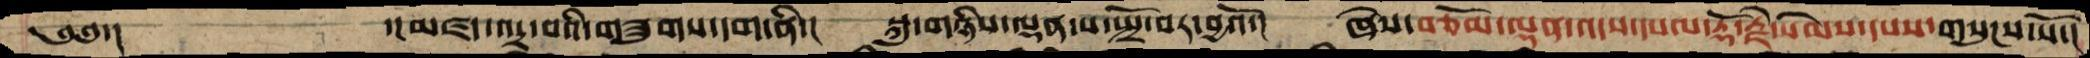༄༅་།      ་།མཛད་འདྲ་བའི་གཟུགས་དག་ནི་།  སྐུ་གཉིས་ལྡན་པ་སྤྲོ་བར་བྱའོ་།  ཞེས་བཅོམ་ལྡན་འདས་དཔལ་རྡོ་རྗེ་སེམས་དཔས་གསུངས་སོ་།
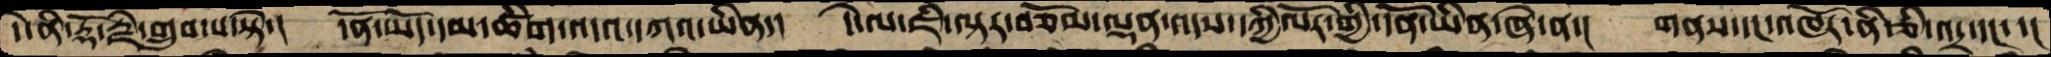དེ་ནི་རྡོ་རྗེ་གྲུབ་པ་སྟེ་།  དོན་ཡོད་དམ་ཚིག་འདའ་དཀའ་ཡིན་།  དེ་ལ་ཇི་ལྟར་བཅོམ་ལྡན་འདས་དཀྱིལོར་གྱི་དོན་ཡིན་ཞེ་ན་།  གནས་དང་འཁོར་ནི་ཅི་འདྲ་དང་་།
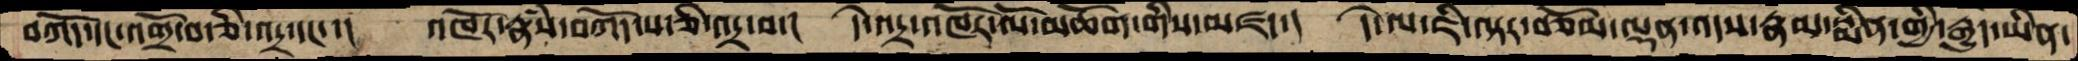བཀོད་དང་འགྲོ་བ་ཅི་འདྲ་དང་་།  འཁོར་རྣཾས་བཀོད་པ་ཅི་འདྲ་བ་།  དེ་འདྲ་འཁོར་ལོ་མཆོག་གིས་མཛད་།  དེ་ལ་ཇི་ལྟར་བཅོམ་ལྡན་འདས་རྣམ་སྨིན་གྱི་རྒྱུད་ཡིན་
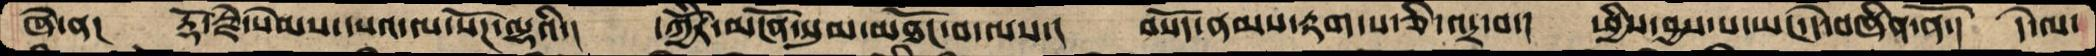ཞེ་ན།  རྡོ་རྗེ་སེམས་དཔའ་ལ་སོཌ་ལྷའི་།  དཀྱིོར་མངོན་སུམ་མཐོང་བ་ལས་།  བསོད་ནམས་རྟག་པ་ཅི་འདྲ་བ་།  ཕྱིས་བྱས་པ་ཡང་དེ་བཞིན་ནོ་།  དེ་ལ་
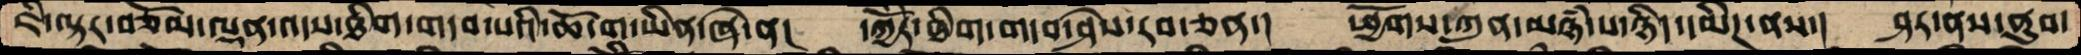ཇི་ལྟར་བཅོམ་ལྡན་འདས་ཐིག་གདབ་པའི་ཆོ་ག་ཡིན་ཞེ་ན།  དཀྱིོར་ཐིག་གདབ་ཤེས་རབ་ཅན་།  ཕྱོགས་ཀུན་མཉཾ་པ་ཉིད་དམིཌ་ནས་།  ཤར་ནས་ནུབ་
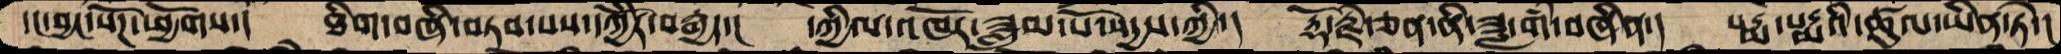དང་བྱང་སོཌ་ཕྱོགས་།  ཐིག་བཞི་བཏབ་པས་དཀྱིོར་བརྒྱད་།  དཀྱིལ་འཁོར་ཟླུམ་པོ་སདྱས་ཀྱི་།  རྡོ་རྗེ་ཅན་ནི་ཟླ་གཾ་བཞིན་།  པདྨ་པདྨའི་ཚུལ་ཡིན་ཏེ་།
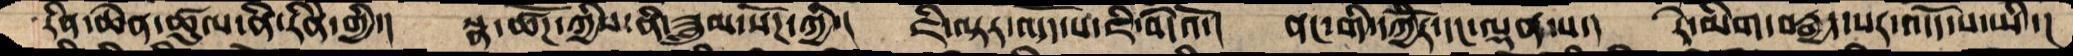རིན་ཆེན་ཚུལ་ནི་རིནེ་གྱི་།  སྣ་ཚོཌ་ཀྱིས་ནི་ཟླུམ་སོཌ་ཀྱི་།  ཇི་ལྟར་འདོད་པ་ཇི་བདེའོ་།  ནང་གི་དཀྱིོར་དང་ལྡན་པ་།  རེ་མིག་བརྒྱད་པར་འདོད་པ་ཡི་།
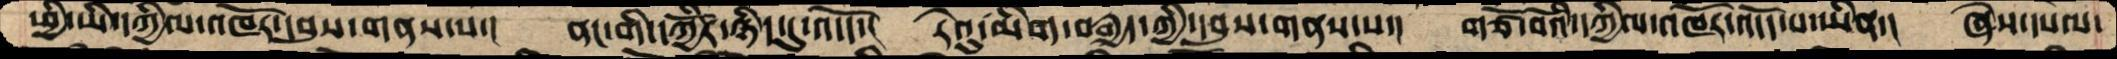ཕྱི་ཡི་དཀྱིལ་འཁོར་དབུས་གནས་པ་།  ནང་གི་དཀྱིོར་ཉིད་དུ་འདོད་།  རེའུ་མིག་བརྒྱད་གྱི་དབུས་གནས་པ་།  གཙོ་བོའི་དཀྱིལ་འཁོར་འདོད་པ་ཡིན་།  ཞེས་དཔལ་
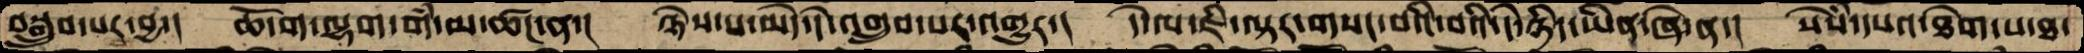བསྒྲུབ་པར་བྱ་།  ཆོ་ག་ལྷག་གཾ་མ་ཚང་ན་།  ཉེས་པ་མེད་དེ་འགྲུབ་པར་འགྱུར་།  དེ་ལ་ཇི་ལྟར་གསང་བའི་བའི་དེ་ཉིད་ཡིན་ཞེ་ན་།  སེཾས་དཔའ་ཐེག་པ་ཐ་
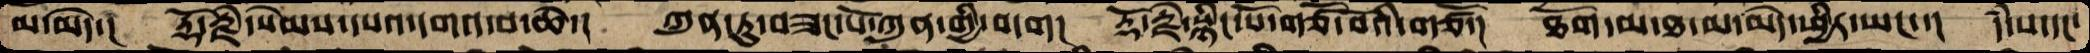མ་མེད་།  རྡོ་རྗེ་སེམས་དཔའ་དགའ་བ་ཆེ་།  ཀུན་ཏུ་བཟང་པོ་ཀུན་གྱི་བདག།  རྡོ་རྗེ་སྙིང་པོ་གཙོ་བོའི་གཙོ་།  ཐོག་མ་ཐ་མ་མེད་ཕྱིར་ཡང་་།  དཾ་པ་དང་
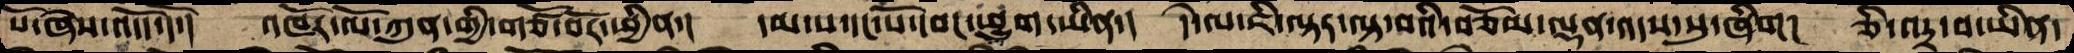པོ་ཞེས་འདོད་དོ་།  འཁོར་ལོ་ཀུན་གྱི་གཙོ་བོར་ཕྱིན་།  དམ་པ་དང་པོ་དབང་ཕྱུག་ཡིན་།  དེ་ལ་ཇི་ལྟར་ལྟ་བའི་བཅོམ་ལྡན་འདས་སུ་ཞིག།  ཅི་འདྲ་བ་ཡིན་
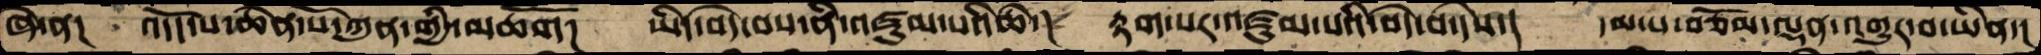ཞེ་ན།  འདོད་པ་ཆེན་པོ་ཀུན་གྱི་མཆོག།  ཡིད་བདེ་བས་ནི་འཛུམ་པའི་ཆེ་།  རྟག་པར་འཛུམ་པའི་བདེ་བ་དེས་།  དམ་པ་བཅོམ་ལྡན་འགྱུར་བ་ཡིན་།
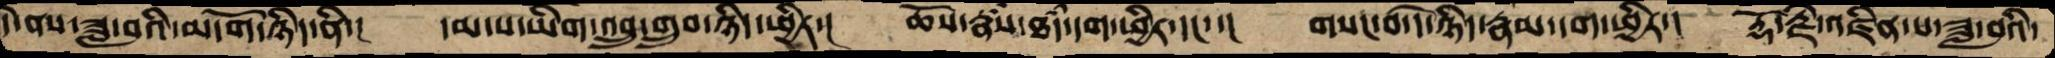དེ་ནས་ཟླ་བའི་མདོག་ཉིད་ནི་།  དམ་པ་ཡིག་འབྲུ་གྲུབ་ཉིད་ཕྱིར་།  ཆོས་རྣཾས་ཐདཾ་དག་ཕྱིར་དང་་།  གསང་བ་དེ་ཉིད་རྣམ་དག་ཕྱིར་།  རྡོ་རྗེ་འཛིན་པ་ཟླ་བའི་
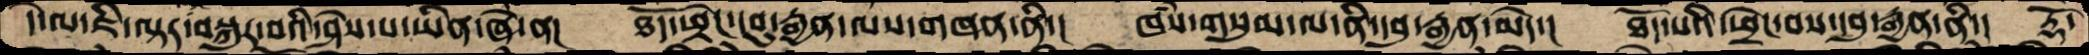དེ་ལ་ཇི་ལྟར་བསྐུར་བའི་ཤེས་པ་ཡིན་ཞེ་ན་།  ཐོད་ཕྲེང་དབུ་རྒྱན་ལས་གཞན་ནི་།  ཁཾས་གསུམ་ལ་ནི་དབུ་རྒྱན་མེད་།  ཐོད་པའི་ཕྲེང་བས་དབུ་རྒྱན་ནི་།  རྡོ་
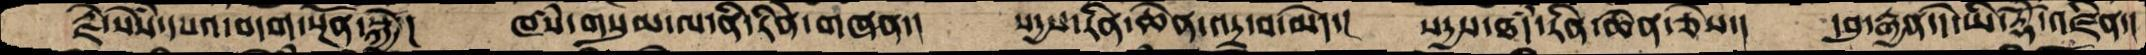རྗེ་སེཾས་དཔའ་བདག་སྔོན་སྐྱེ་།  ཁཾས་གསུམ་ལ་ནི་རིེན་གཞན་།  སདྱས་རིན་ཆེན་འདྲ་བ་མེད་།  སདྱས་ཐདཾ་རིན་ཆེན་ཅེས་།  དབུ་རྒྱན་དེ་ཡི་རྡོེ་འཛིན་།
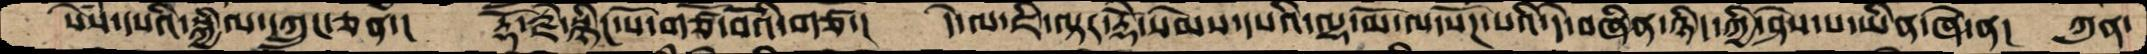སེཾས་དཔའི་སྐྱིལ་དཀྲུང་ཅན་།  རྡོ་རྗེ་སྙིང་པོ་གཙོ་བོའི་གཙ་།  དེ་ལ་ཇི་ལྟར་རྡོེ་སེམས་དཔའི་ལྷ་མོ་ལ་སོཌ་པའི་དེ་བཞིན་ཉིད་ཀྱི་ཤེས་པ་ཡིན་ཞེ་ན་།  ཀུན་
